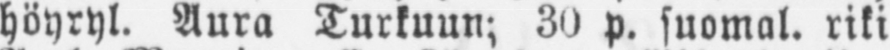höyryl. Aura Turkuun; 30 p. suomat, riki
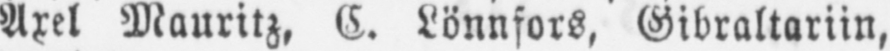Axel Mauritz, C. Lönnfors, Gibraltariin,
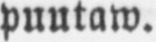puutaw.
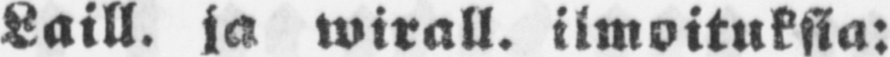Laill. ja wirall. ilmoituksia:
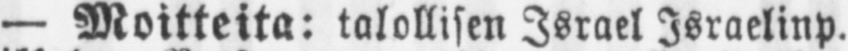— Moitteita: talollisen Israel Israelinp.
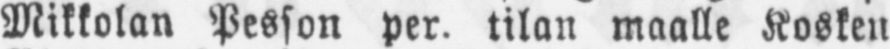Mikkolan Pesson per. tilan maalle Kosken
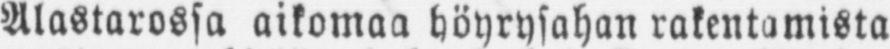Alastarossa aikomaa höyrysahan rakentamista
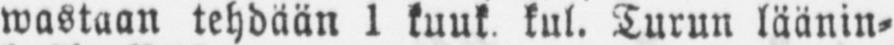wastaan tehdään 1 kuuk kul. Turun läänin-
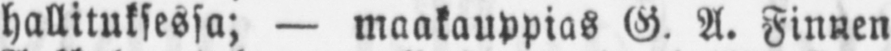hallituksessa; — maakauppias G. A. Finnen
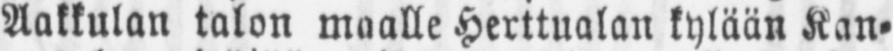Aakkulan talon maalle Herttualan kylään Kan-
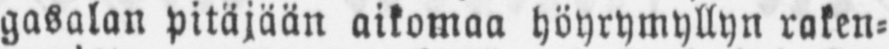gasalan pitäjään aikomaa höyrymyllyn raken-
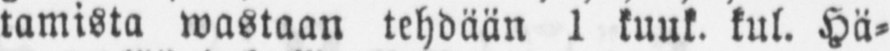tamista wastaan tehdään 1 kuuk. kul. Hä-
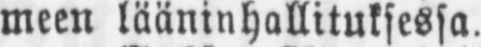meen lääninhallituksessa.
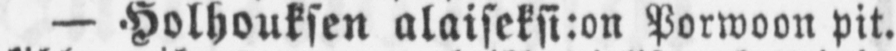— Holhouksen alaiseksi : on Porwoon pit.
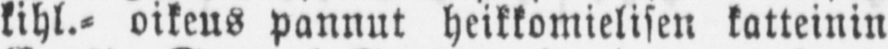kihl.- oikeus pannut heikkomielisen katteinin
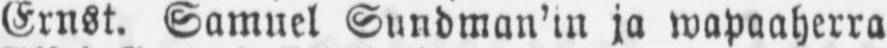Ernst. Samuel Sundman'in ja wapaaherra
